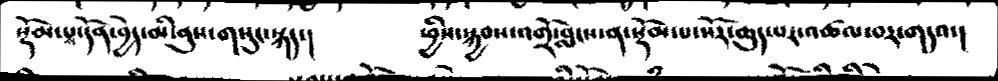སྡོམ་པས་དོན་བྱེད་མི་ནུས་གསུང་སྐད་།  ཕྱིས་སྐྱབས་འགྲོ་བླངས་ན་སྡོམ་པ་སོར་ཆུད་པར་འཚལ་བར་གདའ་།
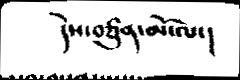དེས་བཙུན་མོ་ལ་།
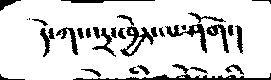དེ་ཀ་འདྲ་བྱེད་ལ་ཤོག་།
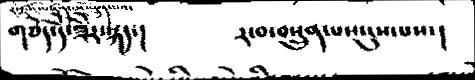གཅོད་དོ་ཟེར་སྐད་།   ར་བ་བསྲུན་པས་དུས་པས་།
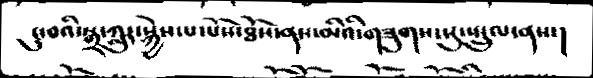ངུ་བའི་སྒྲ་ཀླུར་སྐྱེས་པ་པོས་ཐོས་ནས་མིའི་གཟུགས་སུ་སྤྲུལ་ནས་།
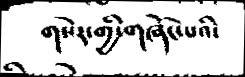གསེར་གྱི་གཞོང་པའི་
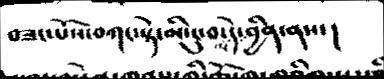བཟང་པོས་བཀང་སྟེ་མི་ངུ་བ་ལ་དེ་བྱིན་ནས་།
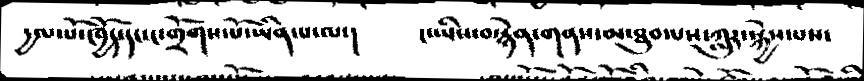དྱལ་པོ་ཁྱོད་དང་ང་གྲོགས་པོ་ཡིན་པ་ལ་།  ང་ཡིས་བསྙེན་གནས་མ་ཐུབ་པས་ཀླུར་སྐྱེས་པས་
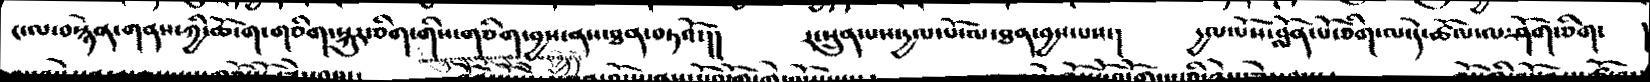ང་ལ་བསྙེན་གནས་ཀྱི་ཆོ་ག་གཅིག་སྐུར་ཅིག་གིས་གཅིག་བྱས་ནས་ཐན་བཏའོ་།།  ར་སྲུན་པས་དྱལ་པོ་ལ་ཐན་བྱས་པས་།  དྱལ་པོས་བློན་པོ་ཅིག་ལ་དེ་ཚོལ་ལ་ཤོག་ཅིག་   །
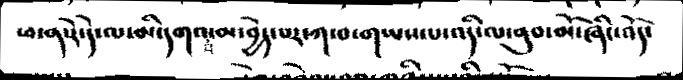ཕ་ན་རེ་དེ་མ་མི་དགའ་བ་མ་བྱེད་པར་ཀ་བ་གཡས་པ་འདི་ལ་ནུབ་མོ་ཞིང་འོད་
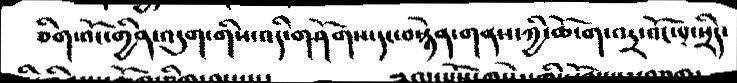ཅིག་འོང་གྱིན་འདུག་གིས་འདི་གཤོགས་དང་བསྙེན་གནས་ཀྱི་ཆོ་ག་འདྲ་འོང་པ་སྲིད་
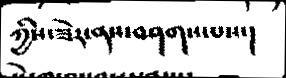ཀྱིས་ཟེར་ནས་བཤགས་པས་།
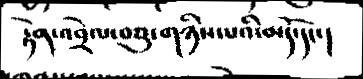རྟེན་འབྲེལ་བཅུ་གཉིས་པའི་མདོ་དང་།
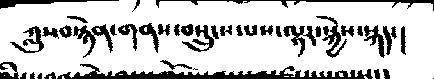ཀླུས་བསཉེན་གནས་བསྲུངས་པས་ལྷར་སྐྱེས་སྐད་།
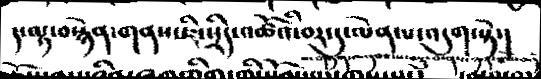ད་ལྟ་བསྙེན་གནས་ཇི་སྲིད་འཚོའི་བར་དུ་ལེན་པ་འདུག་སྟེ་།
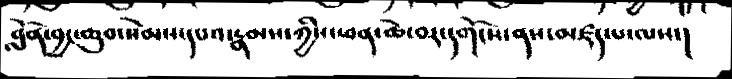བློན་བྱང་ཆུབ་སེམས་དཔའ་རྣམས་ཀྱིས་ཕན་ཆེ་བར་དགོངས་ནས་མཛད་པ་ལས་།
